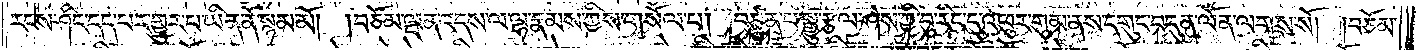རངས་ཤིང་དད་པར་གྱུར་པ་ཡིན་ནོ་སྙམ་མོ། །བཅོམ་ལྡན་འདས་ལ་ལྷ་རྣམས་ཀྱིས་གསོལ་པ། བཙུན་པ་སྒྱུ་རྩལ་ཤེས་ཀྱི་བུ་རིང་དུ་འཕུར་གུམ་ནས་དགུང་བདུན་ལོན་ལགས་སོ། །བཅོམ་
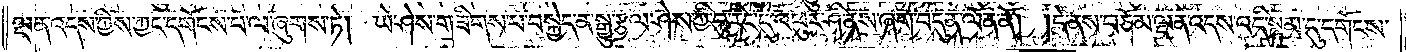ལྡན་འདས་ཀྱིས་ཀྱང་དགོངས་པ་ལ་ཞུགས་ཏེ། ཡེ་ཤེས་གཟིགས་པ་བསྐྱེད་ན་སྒྱུ་རྩལ་ཤེས་ཀྱི་བུ་རིང་དུ་འཕུར་ཤི་ནས་ཞག་བདུན་ལོན་ནོ། །དེ་ནས་བཅོམ་ལྡན་འདས་འདི་སྙམ་དུ་དགོངས་
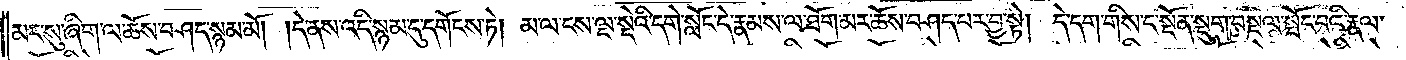མར་སུ་ཞིག་ལ་ཆོས་བཤད་སྙམ་མོ། །དེ་ནས་འདི་སྙམ་དུ་དགོངས་ཏེ། མ་ལ་ངས་ལྔ་སྡེའི་དགེ་སློང་དེ་རྣམས་ལ་ཐོག་མར་ཆོས་བཤད་པར་བྱ་སྟེ། དེ་དག་གིས་ང་སྔོན་སྡུག་བསྔལ་སྦོང་བའི་རྣལ་
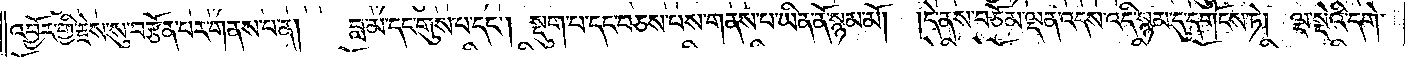འབྱོར་གྱི་རྗེས་སུ་བརྩོན་པར་གནས་པ་ན། བླ་མ་དང་གུས་པ་དང༌། སྡུག་པ་དང་བཅས་པས་གནས་པ་ཡིན་ནོ་སྙམ་མོ། །དེ་ནས་བཅོམ་ལྡན་འདས་འདི་སྙམ་དུ་དགོངས་ཏེ། ལྔ་སྡེའི་དགེ་
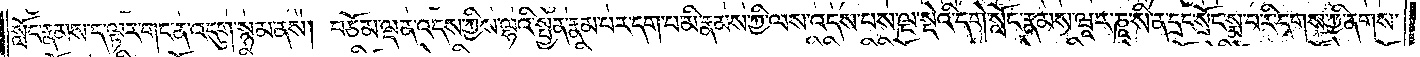སློང་རྣམས་ད་ལྟར་གང་ན་འདུག་སྙམ་ནས། བཅོམ་ལྡན་འདས་ཀྱིས་ལྷའི་སྤྱན་རྣམ་པར་དག་པ་མི་རྣམས་ཀྱི་ལས་འདས་པས་ལྔ་སྡེའི་དགེ་སློང་རྣམས་ཝཱ་ར་ཎཱ་སི་ན་དྲང་སྲོང་སྨ་བ་རི་དྭགས་ཀྱི་ནགས་
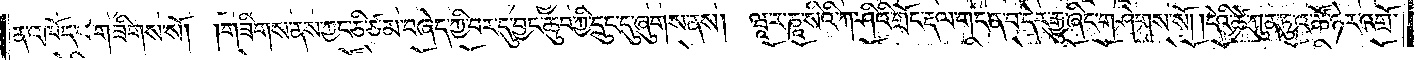ན་འཁོད་པ་གཟིགས་སོ། །གཟིགས་ནས་ཀྱང་ཅི་ཙམ་བཞེད་ཀྱི་བར་དུ་བྱང་ཆུབ་ཀྱི་དྲུང་དུ་ཞུགས་ནས། ཝཱ་ར་ཎཱ་སིའི་ཀ་ཤིའི་གྲོང་རྡལ་གང་ན་བ་དེར་རྒྱུ་ཞིང་གཤེགས་སོ། །དེའི་ཚེ་ཀུན་ཏུ་འཚོ་ཉེར་འགྲོ་
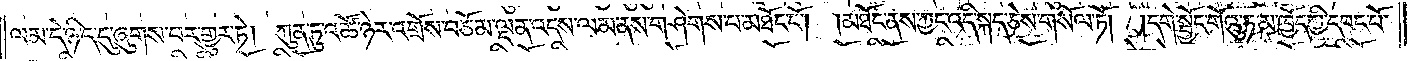ལམ་དེ་ཉིད་དུ་ཞུགས་པར་གྱུར་ཏེ། ཀུན་ཏུ་འཚོ་ཉེར་འགྲོས་བཅོམ་ལྡན་འདས་ལམ་ནས་གཤེགས་པ་མཐོང་ངོ༌། །མཐོང་ནས་ཀྱང་འདི་སྐད་ཅེས་གསོལ་ཏོ། །དགེ་སྦྱོང་གོའུ་ཏ་མ་ཁྱོད་ཀྱི་དབང་པོ་
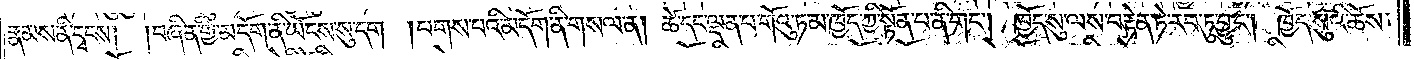རྣམས་ནི་དྭངས། །བཞིན་གྱི་མདོག་ནི་ཡོངས་སུ་དག །པགས་པའི་མདོག་ནི་གསལ་ན། ཚེ་དང་ལྡན་པ་གོའུ་ཏ་མ་ཁྱོད་ཀྱི་སྟོན་པ་ནི་གང༌། ཁྱོད་སུ་ལས་བརྟེན་ཏེ་རབ་ཏུ་བྱུང༌། ཁྱོད་སུའི་ཆོས་
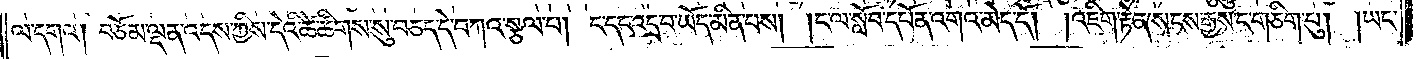ལ་དགའ། བཅོམ་ལྡན་འདས་ཀྱིས་དེའི་ཚེ་ཚིགས་སུ་བཅད་དེ་བཀའ་སྩལ་པ། ང་དང་འདྲ་བ་ཡོད་མིན་པས། །ང་ལ་སློབ་དཔོན་འགའ་མེད་དོ། །འཇིག་རྟེན་སངས་རྒྱས་ང་གཅིག་པུ། །ཡང་
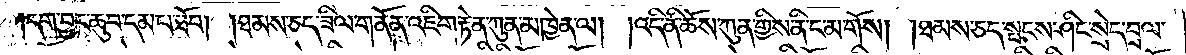དག་བྱང་ཆུབ་དམ་པ་ཐོབ། །ཐམས་ཅད་ཟིལ་གནོན་འཇིག་རྟེན་ཀུན་མཁྱེན་ལ། །འདི་ནི་ཆོས་ཀུན་གྱིས་ནི་ང་མ་གོས། །ཐམས་ཅད་སྤངས་ཤིང་སྲེད་བྲལ་
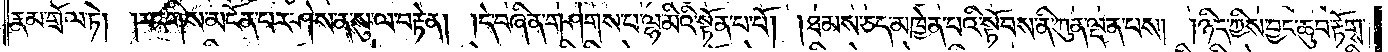རྣམ་གྲོལ་ཏེ། །རང་གིས་མངོན་པར་ཤེས་ན་སུ་ལ་བརྟེན། །དེ་བཞིན་གཤེགས་པ་ལྷ་མིའི་སྟོན་པ་པོ། །ཐམས་ཅད་མཁྱེན་པའི་སྟོབས་ནི་ཀུན་ལྡན་པས། །ཉིད་ཀྱིས་བྱང་ཆུབ་རྟོགས་
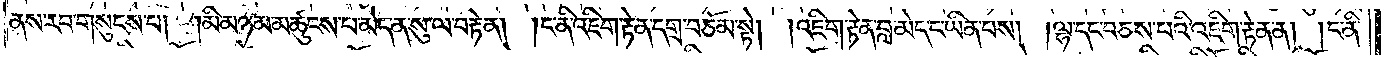ནས་རབ་གསུངས་པ། །མི་མཉམ་མཚུངས་པ་མེད་ན་སུ་ལ་བརྟེན། །ང་ནི་འཇིག་རྟེན་དགྲ་བཅོམ་སྟེ། །འཇིག་རྟེན་བླ་མེད་ང་ཡིན་པས། །ལྷ་དང་བཅས་པའི་འཇིག་རྟེན་ན། །ང་ནི་
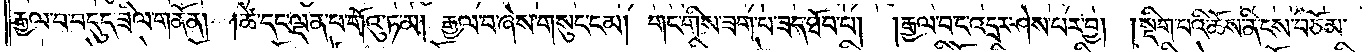རྒྱལ་བ་བདུད་ཟིལ་གནོན། །ཚེ་དང་ལྡན་པ་གོའུ་ཏ་མ། རྒྱལ་བ་ཞེས་གསུང་ངམ། གང་གིས་ཟག་པ་ཟད་ཐོབ་པ། །རྒྱལ་བ་ང་འདྲར་ཤེས་པར་བྱ། །སྡིག་པའི་ཆོས་ནི་ངས་བཅོམ་
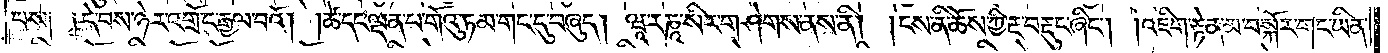པས༑ ༑དེ་བས་ཉེར་འགྲོ་ང་རྒྱལ་བའོ། །ཚེ་དང་ལྡན་པ་གོའུ་ཏམ་གང་དུ་བཞུད། ཝཱ་ར་ཎཱ་སིར་གཤེགས་ནས་ནི། །ངས་ནི་ཆོས་ཀྱི་རྔ་བརྡུང་ཞིང༌། །འཇིག་རྟེན་མ་བསྐོར་གང་ཡིན་
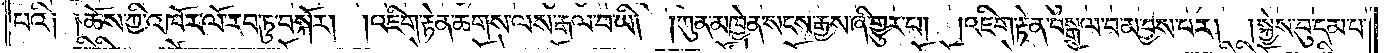པའི༑ ༑ཆོས་ཀྱི་འཁོར་ལོ་རབ་ཏུ་བསྐོར། །འཇིག་རྟེན་ཆགས་ལས་རྒལ་བ་ཡི། །ཀུན་མཁྱེན་སངས་རྒྱས་ཞི་གྱུར་པ། །འཇིག་རྟེན་བསྒྲལ་བ་མ་བྱས་པར། །སྐྱེས་བུ་དམ་པ་
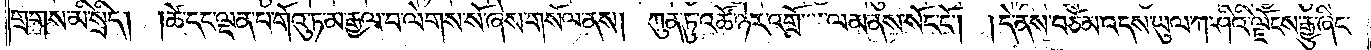གྲགས་མི་སྲིད། །ཚེ་དང་ལྡན་པ་གོའུ་ཏ་མ་རྒྱལ་བ་ལེགས་སོ་ཞེས་གསོལ་ནས། ཀུན་ཏུ་འཚོ་ཉེར་འགྲོ་ལམ་ནས་སོང་ངོ༌། །དེ་ནས་བཅོམ་འདས་ཡུལ་ཀ་ཤིའི་ལྗོངས་རྒྱུ་ཞིང་
